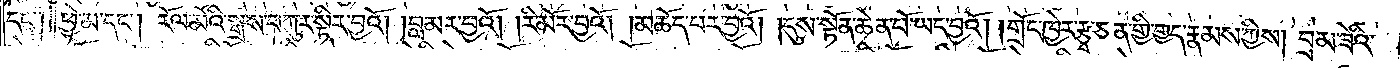དང༌། ཕྱེ་མ་དང༌། རོལ་མོའི་སྒྲས་བཀུར་སྟིར་བྱའོ། །བླ་མར་བྱའོ། །རི་མོར་བྱའོ། །མཆོད་པར་བྱའོ། །དུས་སྟོན་ཆེན་པོ་ཡང་བྱའོ། །གྲོང་ཁྱེར་རྩྭ་ཅན་གྱི་གྱད་རྣམས་ཀྱིས། བྲམ་ཟེའི་
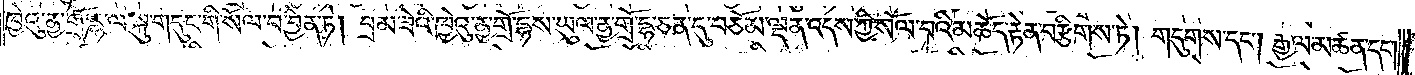ཁྱེའུ་ནྱ་གྲོ་དྷ་ལ་སྐུ་གདུང་གི་སོལ་བ་བྱིན་ཏེ། བྲམ་ཟེའི་ཁྱེའུ་ནྱ་གྲོ་དྷས་ཡུལ་ནྱ་གྲོ་དྷ་ཅན་དུ་བཅོམ་ལྡན་འདས་ཀྱི་སོལ་བའི་མཆོད་རྟེན་བརྩིགས་ཏེ། གདུགས་དང༌། རྒྱལ་མཚན་དང༌།
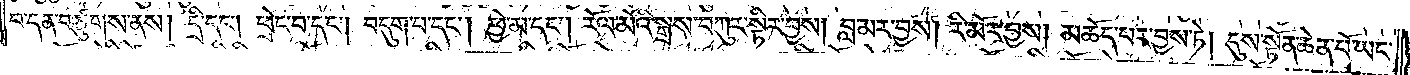བ་དན་བཙུགས་ནས། དྲི་དང༌། ཕྲེང་བ་དང༌། བདུག་པ་དང༌། ཕྱེ་མ་དང༌། རོལ་མོའི་སྒྲས་བཀུར་སྟིར་བྱས། བླ་མར་བྱས། རི་མོར་བྱས། མཆོད་པར་བྱས་ཏེ། དུས་སྟེན་ཆེན་པོ་ཡང་
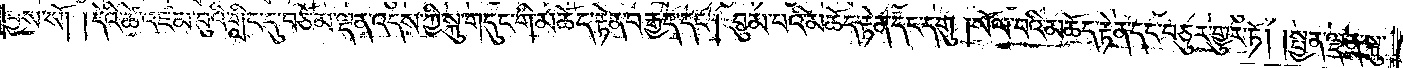བྱས་སོ། །དེའི་ཚེ་འཛམ་བུའི་གླིང་དུ་བཅོམ་ལྡན་འདས་ཀྱི་སྐུ་གདུང་གི་མཆོད་རྟེན་བརྒྱད་དང༌། བུམ་པའི་མཆོད་རྟེན་དང་དགུ ། སོལ་བའི་མཆོད་རྟེན་དང་བཅུར་གྱུར་ཏོ། །སྤྱན་ལྡན་སྐུ་
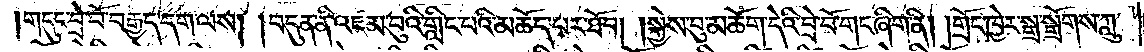།གདུང་བྲེ་བོ་བརྒྱད་དག་ལས། །བདུན་ནི་འཛམ་བུའི་གླིང་པའི་མཆོད་པར་ཐོབ། །སྐྱེས་བུ་མཆོག་དེའི་བྲེ་བོ་གང་ཞིག་ནི། །གྲོང་ཁྱེར་སྒྲ་སྒྲོགས་ཀླུ་
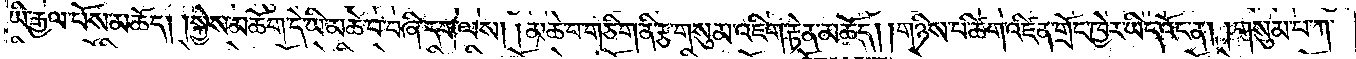ཡི་རྒྱལ་པོས་མཆོད། །སྐྱེས་མཆོག་དེ་ཡི་མཆེ་བ་བཞི་དག་ལས། །མཆེ་བ་གཅིག་ནི་རྩ་གསུམ་འཇིག་རྟེན་མཆོག། །གཉིས་པ་ཚིག་འཛིན་གྲོང་ཁྱེར་ཡིད་འོང་ན། །གསུམ་པ་ཀ་
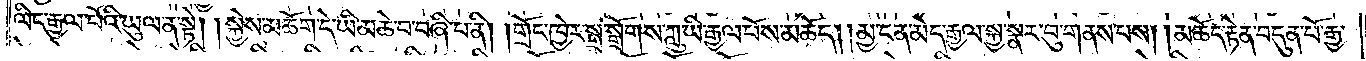ལིང་རྒྱལ་པོའི་ཡུལ་ན་སྟེ། །སྐྱེས་མཆོག་དེ་ཡི་མཆེ་བ་བཞི་པ་ནི། །གྲོང་ཁྱེར་སྒྲ་སྒྲོགས་ཀླུ་ཡི་རྒྱལ་པོས་མཆོད། །མྱ་ངན་མེད་རྒྱལ་སྐྱ་སྣར་བུ་གནས་པས། །མཆོད་རྟེན་བདུན་པོ་རྒྱ་
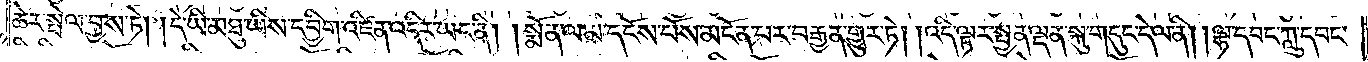ཆེར་སྤེལ་བྱས་ཏེ། །དེ་ཡི་མཐུ་ཡིས་དབྱིག་འཛིན་འདིར་ཡང་ནི། །སྨོན་ལམ་དངོས་པོས་མངོན་པར་བརྒྱན་གྱུར་ཏེ། །འདི་ལྟར་སྤྱན་ལྡན་སྐུ་གདུང་དེ་ལ་ནི། །ལྷ་དབང་ཀླུ་དབང་
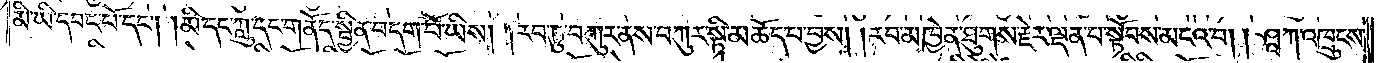མི་ཡི་དབང་པོ་དང༌། །མི་དང་ཀླུ་དང་གནོད་སྦྱིན་བདག་པོ་ཡིས། །རབ་ཏུ་བཀུར་ནས་བཀུར་སྟི་མཆོད་པ་བྱས། །རབ་མཁྱེན་ཐུགས་རྗེར་ལྡན་པ་སྟོབས་མངའ་བ། །ཤཱཀྱ་འཁྲུངས་
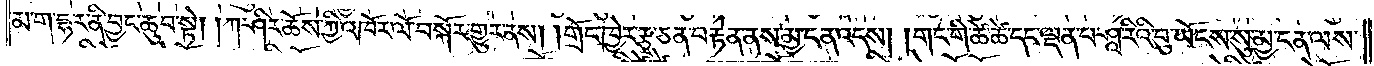མ་ག་དྷར་ནི་བྱང་ཆུབ་སྟེ། །ཀ་ཤིར་ཆོས་ཀྱི་འཁོར་ལོ་བསྐོར་གྱུར་ནས། །གྲོང་ཁྱེར་རྩྭ་ཅན་བརྟེན་ནས་མྱ་ངན་འདས། །གང་གི་ཚེ་ཚེ་དང་ལྡན་པ་ཤཱ་རིའི་བུ་ཡོངས་སུ་མྱ་ངན་ལས་
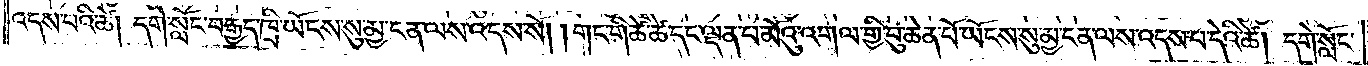འདས་པའི་ཚེ། དགེ་སློང་བརྒྱད་ཁྲི་ཡོངས་སུ་མྱ་ངན་ལས་འདས་སོ། །གང་གི་ཚེ་ཚེ་དང་ལྡན་པ་མོའུ་འགལ་གྱི་བུ་ཆེན་པོ་ཡོངས་སུ་མྱ་ངན་ལས་འདས་པ་དེའི་ཚེ། དགེ་སློང་
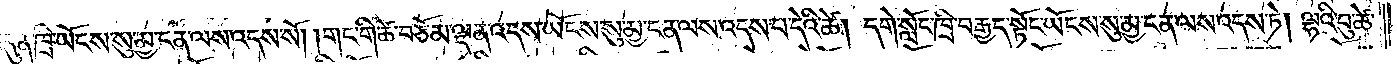བདུན་ཁྲི་ཡོངས་སུ་མྱ་ངན་ལས་འདས་སོ། །གང་གི་ཚེ་བཅོམ་ལྡན་འདས་ཡོངས་སུ་མྱ་ངན་ལས་འདས་པ་དེའི་ཚེ། དགེ་སློང་ཁྲི་བརྒྱད་སྟོང་ཡོངས་སུ་མྱ་ངན་ལས་འདས་ཏེ། ལྷའི་བུ་ཚེ་
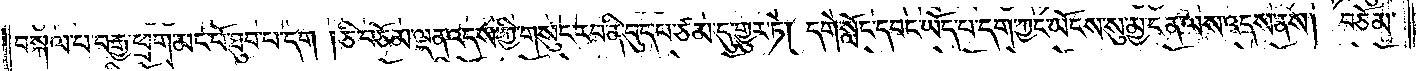བསྐལ་བ་བརྒྱ་ཕྲག་མང་པོ་ཐུབ་པ་དག །ཅི་བཅོམ་ལྡན་འདས་ཀྱི་གསུང་རབ་ནི་དུད་པ་ཙམ་དུ་གྱུར་ཏེ། དགེ་སློང་དབང་ཡོད་པ་དག་ཀྱང་ཡོངས་སུ་མྱ་ངན་ལས་འདས་ནས། བཅོམ་
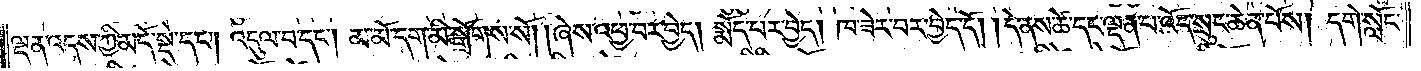ལྡན་འདས་ཀྱི་མདོ་སྡེ་དང༌། འདུལ་བ་དང༌། མ་མོ་དག་མི་སྒྲོགས་སོ། །ཞེས་འཕྱ་བར་བྱེད། སྨོད་པར་བྱེད། ཁ་ཟེར་བར་བྱེད་དོ། །དེ་ནས་ཚེ་དང་ལྡན་པ་འོད་སྲུང་ཆེན་པོས། དགེ་སློང་
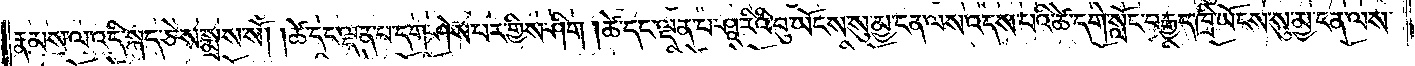རྣམས་ལ་འདི་སྐད་ཅེས་སྨྲས་སོ། །ཚེ་དང་ལྡན་པ་དག་ཤེས་པར་གྱིས་ཤིག །ཚེ་དང་ལྡན་པ་ཤཱ་རིའི་བུ་ཡོངས་སུ་མྱ་ངན་ལས་འདས་པའི་ཚེ་དགེ་སློང་བརྒྱད་ཁྲི་ཡོངས་སུ་མྱ་ངན་ལས་
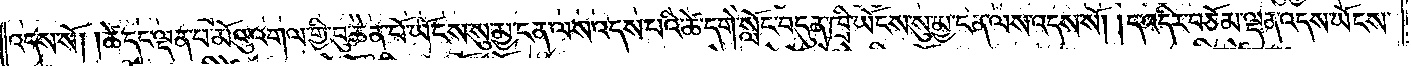འདས་སོ། །ཚེ་དང་ལྡན་པ་མོའུ་འགལ་གྱི་བུ་ཆེན་པོ་ཡོངས་སུ་མྱ་ངན་ལས་འདས་པའི་ཚེ་དགེ་སློང་བདུན་ཁྲི་ཡོངས་སུ་མྱ་ངན་ལས་འདས་སོ། །ད་འདིར་བཅོམ་ལྡན་འདས་ཡོངས་
